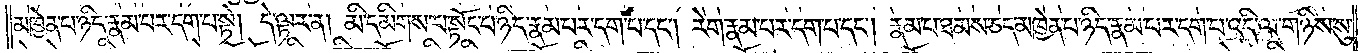མཁྱེན་པ་ཉིད་རྣམ་པར་དག་པ་སྟེ། དེ་ལྟར་ན། མི་དམིགས་པ་སྟོང་པ་ཉིད་རྣམ་པར་དག་པ་དང༌། རེག་རྣམ་པར་དག་པ་དང༌། རྣམ་པ་ཐམས་ཅད་མཁྱེན་པ་ཉིད་རྣམ་པར་དག་པ་འདི་ལ་གཉིས་སུ་
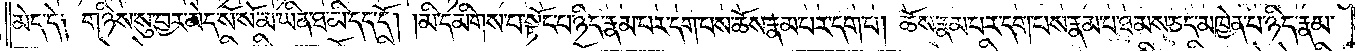མེད་དེ༑ གཉིས་སུ་བྱར་མེད་སོ་སོ་མ་ཡིན་ཐ་མི་དད་དོ། །མི་དམིགས་པ་སྟོང་པ་ཉིད་རྣམ་པར་དག་པས་ཆོས་རྣམ་པར་དག་པ། ཆོས་རྣམ་པར་དག་པས་རྣམ་པ་ཐམས་ཅད་མཁྱེན་པ་ཉིད་རྣམ་
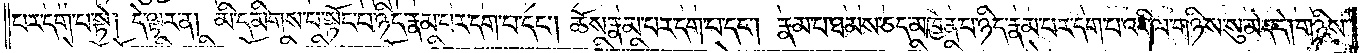པར་དག་པ་སྟེ། དེ་ལྟར་ན། མི་དམིགས་པ་སྟོང་པ་ཉིད་རྣམ་པར་དག་པ་དང༌། ཆོས་རྣམ་པར་དག་པ་དང༌། རྣམ་པ་ཐམས་ཅད་མཁྱེན་པ་ཉིད་རྣམ་པར་དག་པ་འདི་ལ་གཉིས་སུ་མེད་དེ། གཉིས་
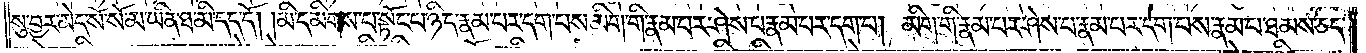སུ་བྱར་མེད་སོ་སོ་མ་ཡིན་ཐ་མིད་དད་དོ། །མི་དམིགས་པ་སྟོང་པ་ཉིད་རྣམ་པར་དག་པས་མིག་གི་རྣམ་པར་ཤེས་པ་རྣམ་པར་དག་པ། མིག་གི་རྣམ་པར་ཤེས་པ་རྣམ་པར་དག་པས་རྣམ་པ་ཐམས་ཅད་
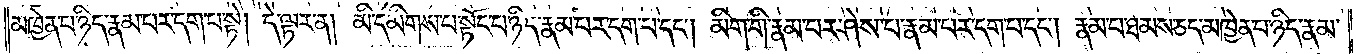མཁྱེན་པ་ཉིད་རྣམ་པར་དག་པ་སྟེ། དེ་ལྟར་ན། མི་དམིགས་པ་སྟོང་པ་ཉིད་རྣམ་པར་དག་པ་དང༌། མིག་གི་རྣམ་པར་ཤེས་པ་རྣམ་པར་དག་པ་དང༌། རྣམ་པ་ཐམས་ཅད་མཁྱེན་པ་ཉིད་རྣམ་
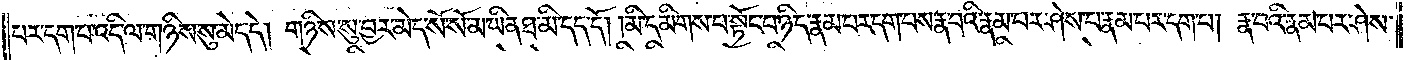པར་དག་པ་འདི་ལ་གཉིས་སུ་མེད་དེ། གཉིས་སུ་བྱར་མེད་སོ་སོ་མ་ཡིན་ཐ་མི་དད་དོ། །མི་དམིགས་པ་སྟོང་པ་ཉིད་རྣམ་པར་དག་པས་རྣ་བའི་རྣམ་པར་ཤེས་པ་རྣམ་པར་དག་པ། རྣ་བའི་རྣམ་པར་ཤེས་
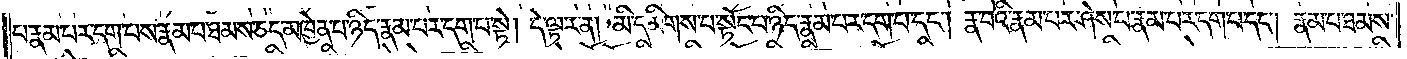པ་རྣམ་པར་དག་པས་རྣམ་པ་ཐམས་ཅད་མཁྱེན་པ་ཉིད་རྣམ་པར་དག་པ་སྟེ། དེ་ལྟར་ན། མི་དམིགས་པ་སྟོང་པ་ཉིད་རྣམ་པར་དག་པ་དང༌། རྣ་བའི་རྣམ་པར་ཤེས་པ་རྣམ་པར་དག་པ་དང༌། རྣམ་པ་ཐམས་
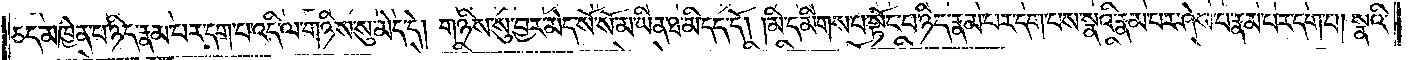ཅད་མཁྱེན་པ་ཉིད་རྣམ་པར་དག་པ་འདི་ལ་གཉིས་སུ་མེད་དེ། གཉིས་སུ་བྱར་མེད་སོ་སོ་མ་ཡིན་ཐ་མི་དད་དོ། །མི་དམིགས་པ་སྟོང་པ་ཉིད་རྣམ་པར་དག་པས་སྣའི་རྣམ་པར་ཤེས་པ་རྣམ་པར་དག་པ། སྣའི་
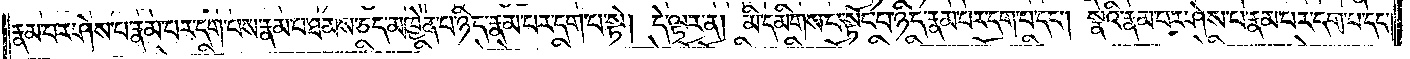རྣམ་པར་ཤེས་པ་རྣམ་པར་དག་པས་རྣམ་པ་ཐམས་ཅད་མཁྱེན་པ་ཉིད་རྣམ་པར་དག་པ་སྟེ། དེ་ལྟར་ན། མི་དམིགས་པ་སྟོང་པ་ཉིད་རྣམ་པར་དག་པ་དང༌། སྣའི་རྣམ་པར་ཤེས་པ་རྣམ་པར་དག་པ་དང༌།
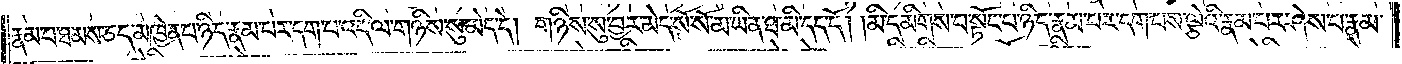རྣམ་པ་ཐམས་ཅད་མཁྱེན་པ་ཉིད་རྣམ་པར་དག་པ་འདི་ལ་གཉིས་སུ་མེད་དེ། གཉིས་སུ་བྱར་མེད་སོ་སོ་མ་ཡིན་ཐ་མི་དད་དོ། །མི་དམིགས་པ་སྟོང་པ་ཉིད་རྣམ་པར་དག་པས་ལྕེའི་རྣམ་པར་ཤེས་པ་རྣམ་
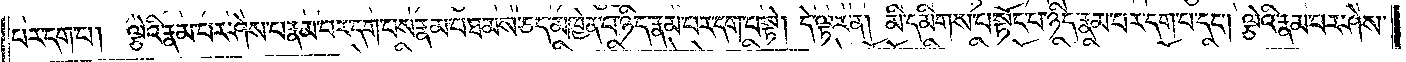པར་དག་པ། ལྕེའི་རྣམ་པར་ཤེས་པ་རྣམ་པར་དག་པས་རྣམ་པ་ཐམས་ཅད་མཁྱེན་པ་ཉིད་རྣམ་པར་དག་པ་སྟེ། དེ་ལྟར་ན། མི་དམིགས་པ་སྟོང་པ་ཉིད་རྣམ་པར་དག་པ་དང༌། ལྕེའི་རྣམ་པར་ཤེས་
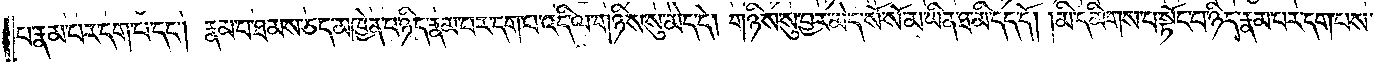པ་རྣམ་པར་དག་པ་དང༌། རྣམ་པ་ཐམས་ཅད་མཁྱེན་པ་ཉིད་རྣམ་པར་དག་པ་འདི་ལ་གཉིས་སུ་མེད་དེ། གཉིས་སུ་བྱར་མེད་སོ་སོ་མ་ཡིན་ཐ་མི་དད་དོ། །མི་དམིགས་པ་སྟོང་པ་ཉིད་རྣམ་པར་དག་པས་
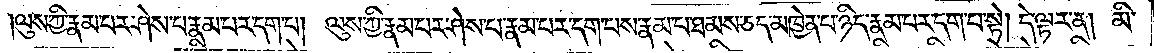ལུས་ཀྱི་རྣམ་པར་ཤེས་པ་རྣམ་པར་དག་པ། ལུས་ཀྱི་རྣམ་པར་ཤེས་པ་རྣམ་པར་དག་པས་རྣམ་པ་ཐམས་ཅད་མཁྱེན་པ་ཉིད་རྣམ་པར་དག་པ་སྟེ། དེ་ལྟར་ན། མི་
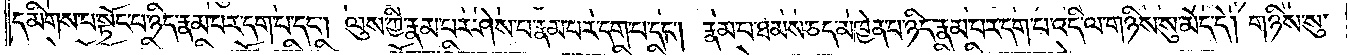དམིགས་པ་སྟོང་པ་ཉིད་རྣམ་པར་དག་པ་དང༌། ལུས་ཀྱི་རྣམ་པར་ཤེས་པ་རྣམ་པར་དག་པ་དང༌། རྣམ་པར་ཐམས་ཅད་མཁྱེན་པ་ཉིད་རྣམ་པར་དག་པ་འདི་ལ་གཉིས་སུ་མེད་དེ། གཉིས་སུ་
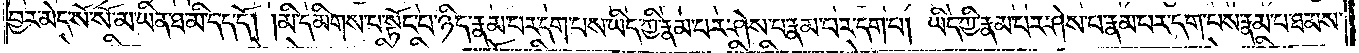བྱར་མེད་སོ་སོ་མ་ཡིན་ཐ་མི་དད་དོ། །མི་དམིགས་པ་སྟོང་པ་ཉིད་རྣམ་པར་དག་པས་ཡིད་ཀྱི་རྣམ་པར་ཤེས་པ་རྣམ་པར་དག་པ། ཡིད་ཀྱི་རྣམ་པར་ཤེས་པ་རྣམ་པར་དག་པས་རྣམ་པ་ཐམས་
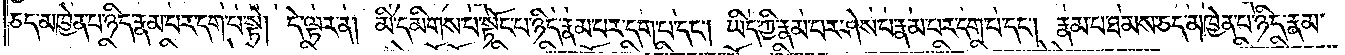ཅད་མཁྱེན་པ་ཉིད་རྣམ་པར་དག་པ་སྟེ། དེ་ལྟར་ན། མི་དམིགས་པ་སྟོང་པ་ཉིད་རྣམ་པར་དག་པ་དང༌། ཡིད་ཀྱི་རྣམ་པར་ཤེས་པ་རྣམ་པར་དག་པ་དང༌། རྣམ་པ་ཐམས་ཅད་མཁྱེན་པ་ཉིད་རྣམ་
